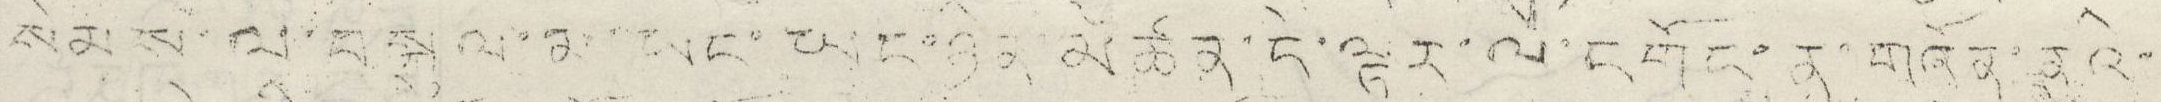སེམས་ལ་བསྐུལ་མ་མང་ཡང་ཉིན་མཚན་དེ་ལྟར་ལ་དགོངས་ན་གཞོན་ནུའི་
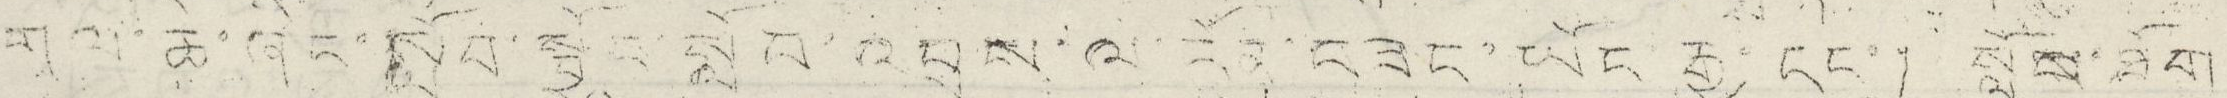གལ་ཆེ་ཞིང་སློབ་སྦྱོང་སློབ་འབྲས་ལ་དོན་བཟང་ཡོང་རྒྱུ་དང་། སློབ་ཐོག་
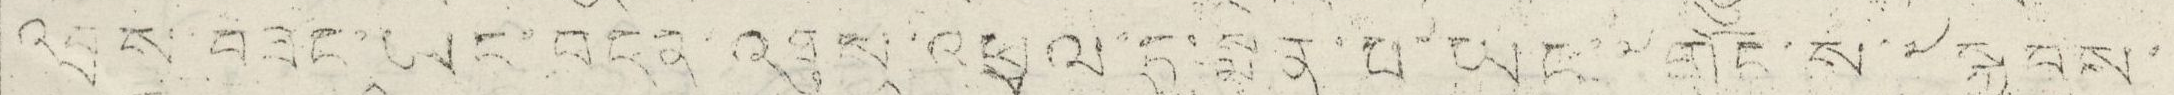འབྲས་བཟང་ཡང་བདེན་འཐུས་འཕྲལ་དུ་སྨིན་པ་ཡང་༸གོང་ས་༸སྐྱབས་
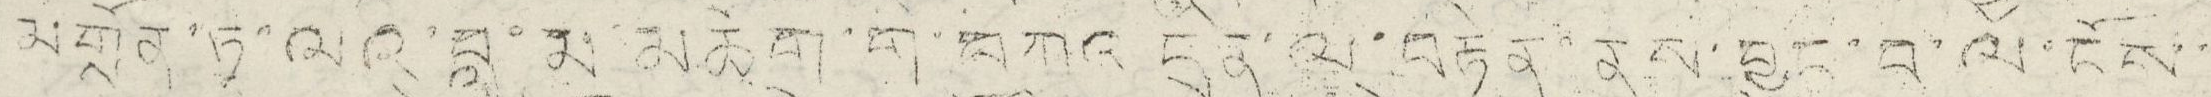མགོན་ཏཱ་ལའི་བླ་མ་མཆོག་གི་བཀའ དྲིན་ལ་བརྟེན་ནས་བྱུང་བ་ལོ་ངོས་
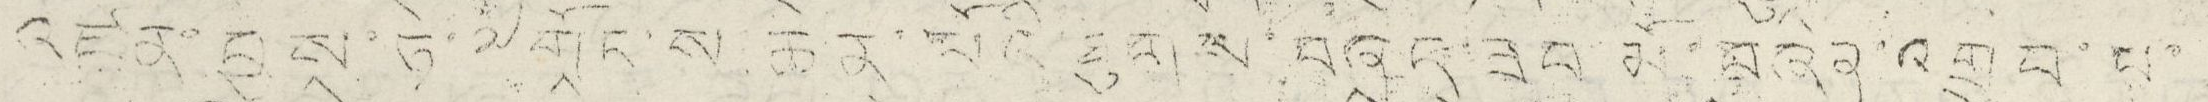འཛིན་བྱས་ཏེ་༸གོང་ས ཆེན་པོའི་ཐུགས་བཞེད་ཟབ་མོ་བཞིན་འགྲུབ་པ་
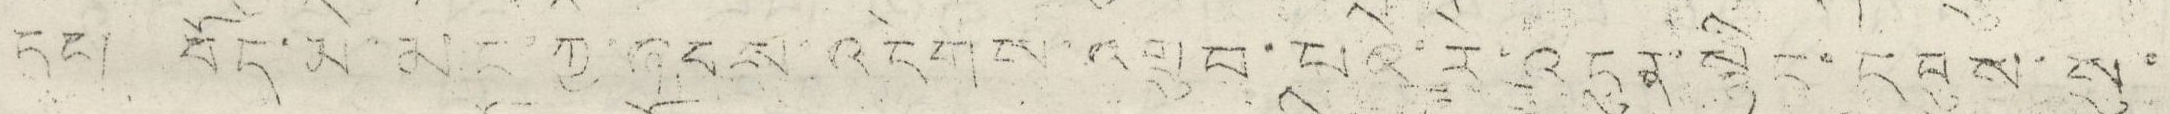དང་། བོད་མི་མང་གྱི་ཞབས་འདེགས་འགྲུབ་པའི་རེ་འདུན་སྙིང་དབུས་སུ་
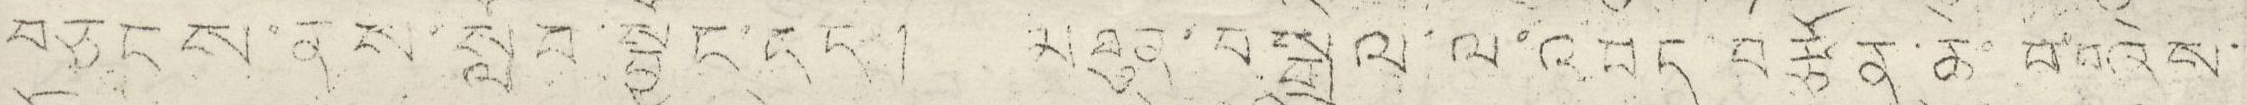བཅངས་ནས་སློབ་སྦྱོང་དང་། མཐུན་བསྒྲིལ་ལ་འབད བརྩོན་ཆེ་བའི་བཞེས་
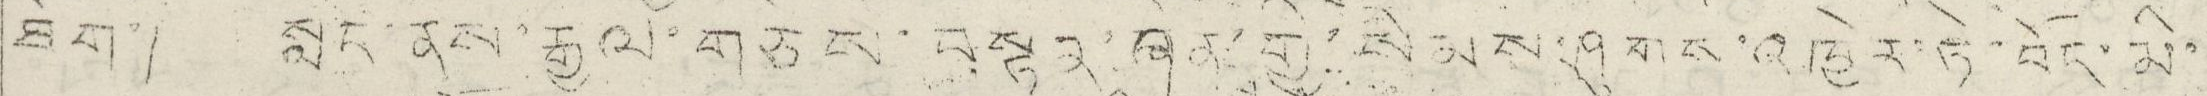ཐོག་། སླང་ནས་རྒྱལ་གཅེས་བསྟན་ཞེན་གྱི་སེམས་ཤུགས་འཁྱེར་ཏེ་བོད་མི་
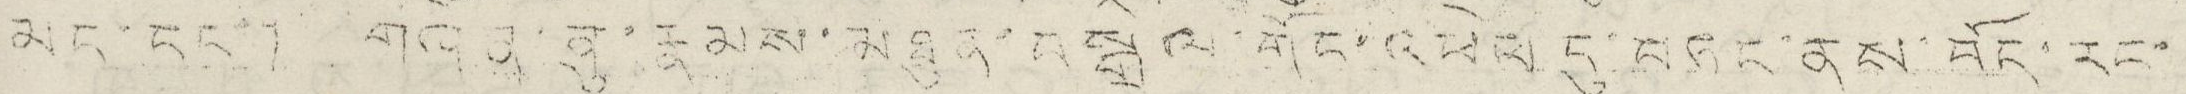མང་དང་། གཞོན་ནུ་རྣམས་མཐུན་བསྒྲིལ་གོང་འཕེལ དུ་བཏང་ནས་བོད་རང་
